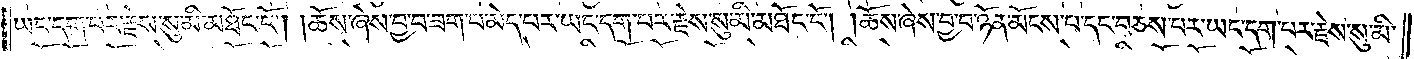ཡང་དག་པར་རྗེས་སུ་མི་མཐོང་ངོ༌། །ཆོས་ཞེས་བྱ་བ་ཟག་པ་མེད་པར་ཡང་དག་པར་རྗེས་སུ་མི་མཐོང་ངོ༌། །ཆོས་ཞེས་བྱ་བ་ཉོན་མོངས་པ་དང་བཅས་པར་ཡང་དག་པར་རྗེས་སུ་མི་
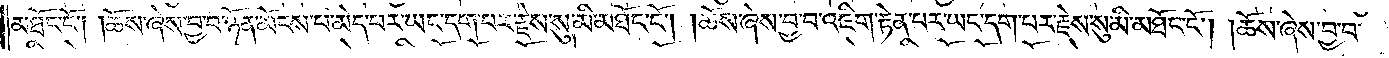མཐོང་ངོ༌། །ཆོས་ཞེས་བྱ་བ་ཉོན་མོངས་པ་མེད་པར་ཡང་དག་པར་རྗེས་སུ་མི་མཐོང་ངོ༌། །ཆོས་ཞེས་བྱ་བ་འཇིག་རྟེན་པར་ཡང་དག་པར་རྗེས་སུ་མི་མཐོང་ངོ༌། །ཆོས་ཞེས་བྱ་བ་
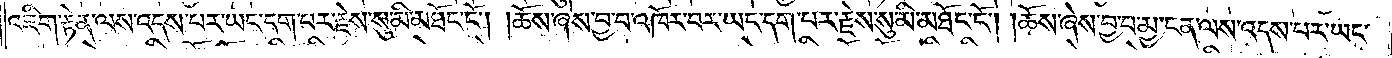འཇིག་རྟེན་ལས་འདས་པར་ཡང་དག་པར་རྗེས་སུ་མི་མཐོང་ངོ༌། །ཆོས་ཞེས་བྱ་བ་འཁོར་བར་ཡང་དག་པར་རྗེས་སུ་མི་མཐོང་ངོ༌། །ཆོས་ཞེས་བྱ་བ་མྱ་ངན་ལས་འདས་པར་ཡང་
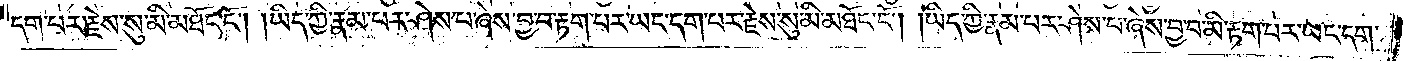དག་པར་རྗེས་སུ་མི་མཐོང་ངོ༌། །ཡིད་ཀྱི་རྣམ་པར་ཤེས་པ་ཞེས་བྱ་བ་རྟག་པར་ཡང་དག་པར་རྗེས་སུ་མི་མཐོང་ངོ༌། །ཡིད་ཀྱི་རྣམ་པར་ཤེས་པ་ཞེས་བྱ་བ་མི་རྟག་པར་ཡང་དག་
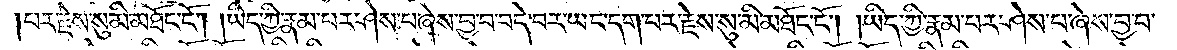པར་རྗེས་སུ་མི་མཐོང་ངོ༌། །ཡིད་ཀྱི་རྣམ་པར་ཤེས་པ་ཞེས་བྱ་བ་བདེ་བར་ཡང་དག་པར་རྗེས་སུ་མི་མཐོང་ངོ༌། །ཡིད་ཀྱི་རྣམ་པར་ཤེས་པ་ཞེས་བྱ་བ་
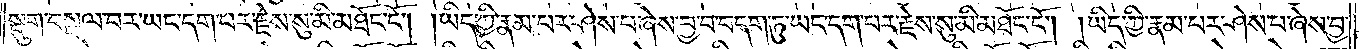སྡུག་བསྔལ་བར་ཡང་དག་པར་རྗེས་སུ་མི་མཐོང་ངོ༌། །ཡིད་ཀྱི་རྣམ་པར་ཤེས་པ་ཞེས་བྱ་བ་བདག་ཏུ་ཡང་དག་པར་རྗེས་སུ་མི་མཐོང་ངོ༌། །ཡིད་ཀྱི་རྣམ་པར་ཤེས་པ་ཞེས་བྱ་
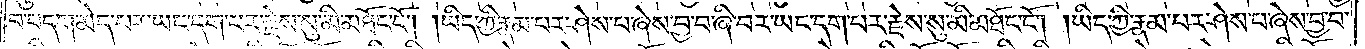བ་བདག་མེད་པར་ཡང་དག་པར་རྗེས་སུ་མི་མཐོང་ངོ༌། །ཡིད་ཀྱི་རྣམ་པར་ཤེས་པ་ཞེས་བྱ་བ་ཞི་བར་ཡང་དག་པར་རྗེས་སུ་མི་མཐོང་ངོ༌། །ཡིད་ཀྱི་རྣམ་པར་ཤེས་པ་ཞེས་བྱ་བ་
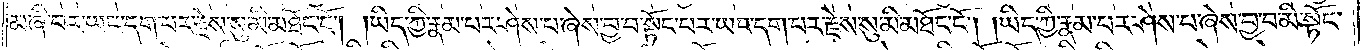མ་ཞི་བར་ཡང་དག་པར་རྗེས་སུ་མི་མཐོང་ངོ༌། །ཡིད་ཀྱི་རྣམ་པར་ཤེས་པ་ཞེས་བྱ་བ་སྟོང་པར་ཡང་དག་པར་རྗེས་སུ་མི་མཐོང་ངོ༌། །ཡིད་ཀྱི་རྣམ་པར་ཤེས་པ་ཞེས་བྱ་བ་མི་སྟོང་
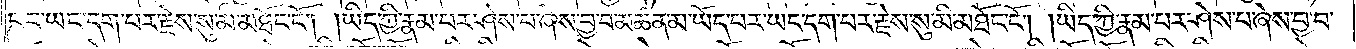པར་ཡང་དག་པར་རྗེས་སུ་མི་མཐོང་ངོ༌། །ཡིད་ཀྱི་རྣམ་པར་ཤེས་པ་ཞེས་བྱ་བ་མཚན་མ་ཡོད་པར་ཡང་དག་པར་རྗེས་སུ་མི་མཐོང་ངོ༌། །ཡིད་ཀྱི་རྣམ་པར་ཤེས་པ་ཞེས་བྱ་བ་
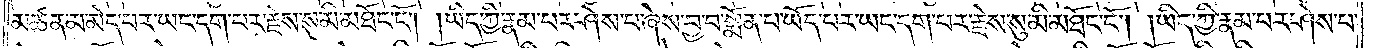མཚན་མ་མེད་པར་ཡང་དག་པར་རྗེས་སུ་མི་མཐོང་ངོ༌། །ཡིད་ཀྱི་རྣམ་པར་ཤེས་པ་ཞེས་བྱ་བ་སྨོན་པ་ཡོད་པར་ཡང་དག་པར་རྗེས་སུ་མི་མཐོང་ངོ༌། །ཡིད་ཀྱི་རྣམ་པར་ཤེས་པ་
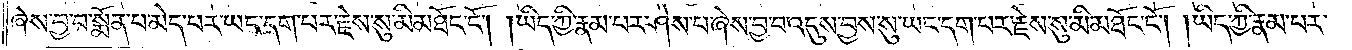ཞེས་བྱ་བ་སྨོན་པ་མེད་པར་ཡང་དག་པར་རྗེས་སུ་མི་མཐོང་ངོ༌། །ཡིད་ཀྱི་རྣམ་པར་ཤེས་པ་ཞེས་བྱ་བ་འདུས་བྱས་སུ་ཡང་དག་པར་རྗེས་སུ་མི་མཐོང་ངོ༌། །ཡིད་ཀྱི་རྣམ་པར་
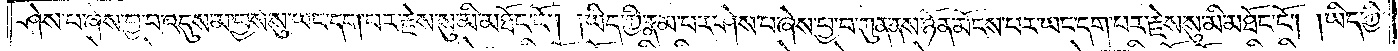ཤེས་པ་ཞེས་བྱ་བ་འདུས་མ་བྱས་སུ་ཡང་དག་པར་རྗེས་སུ་མི་མཐོང་ངོ༌། །ཡིད་ཀྱི་རྣམ་པར་ཤེས་པ་ཞེས་བྱ་བ་ཀུན་ནས་ཉོན་མོངས་པར་ཡང་དག་པར་རྗེས་སུ་མི་མཐོང་ངོ༌། །ཡིད་ཀྱི་
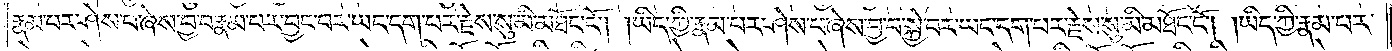རྣམ་པར་ཤེས་པ་ཞེས་བྱ་བ་རྣམ་པར་བྱང་བར་ཡང་དག་པར་རྗེས་སུ་མི་མཐོང་ངོ༌། །ཡིད་ཀྱི་རྣམ་པར་ཤེས་པ་ཞེས་བྱ་བ་སྐྱེ་བར་ཡང་དག་པར་རྗེས་སུ་མི་མཐོང་ངོ༌། །ཡིད་ཀྱི་རྣམ་པར་
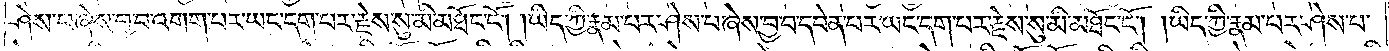ཤེས་པ་ཞེས་བྱ་བ་འགག་པར་ཡང་དག་པར་རྗེས་སུ་མི་མཐོང་ངོ༌། །ཡིད་ཀྱི་རྣམ་པར་ཤེས་པ་ཞེས་བྱ་བ་དབེན་པར་ཡང་དག་པར་རྗེས་སུ་མི་མཐོང་ངོ༌། །ཡིད་ཀྱི་རྣམ་པར་ཤེས་པ་
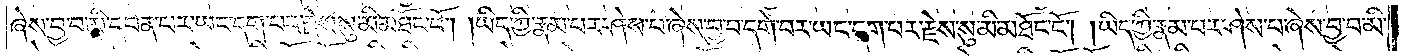ཞེས་བྱ་བ་མི་དབེན་པར་ཡང་དག་པར་རྗེས་སུ་མི་མཐོང་ངོ༌། །ཡིད་ཀྱི་རྣམ་པར་ཤེས་པ་ཞེས་བྱ་བ་དགེ་བར་ཡང་དག་པར་རྗེས་སུ་མི་མཐོང་ངོ༌། །ཡིད་ཀྱི་རྣམ་པར་ཤེས་པ་ཞེས་བྱ་བ་མི་
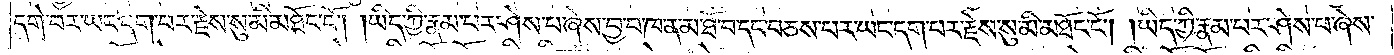དགེ་བར་ཡང་དག་པར་རྗེས་སུ་མི་མཐོང་ངོ༌། །ཡིད་ཀྱི་རྣམ་པར་ཤེས་པ་ཞེས་བྱ་བ་ཁ་ན་མ་ཐོ་བ་དང་བཅས་པར་ཡང་དག་པར་རྗེས་སུ་མི་མཐོང་ངོ༌། །ཡིད་ཀྱི་རྣམ་པར་ཤེས་པ་ཞེས་
